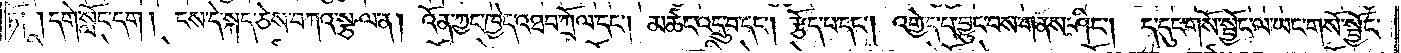ཏོ། །དགེ་སློང་དག །ངས་དེ་སྐད་ཅེས་བཀའ་སྩལ་ན། འོན་ཀྱང་ཁྱེད་འཐབ་ཀྲོལ་དང༌། མཚང་འདྲུ་བ་དང༌། རྩོད་པ་དང༌། འགྱེད་པ་བྱུང་བས་གནས་ཤིང༌། ད་དུང་གསོ་སྦྱོང་ལ་ཡང་གསོ་སྦྱོང་
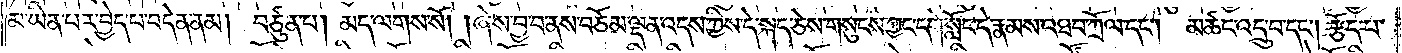མ་ཡིན་པར་བྱེད་པ་བདེན་ནམ། བཙུན་པ། མད་ལགས་སོ། །ཞེས་བྱ་བ་ནས་བཅོམ་ལྡན་འདས་ཀྱིས་དེ་སྐད་ཅེས་གསུངས་ཀྱང་དགེ་སློང་དེ་རྣམས་འཐབ་ཀྲོལ་དང༌། མཚང་འདྲུ་བ་དང༌། རྩོད་པ་
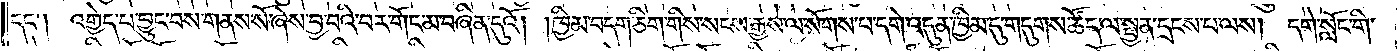དང་༑ འགྱེད་པ་བྱུང་བས་གནས་སོ་ཞེས་བྱ་བའི་བར་གོང་མ་བཞིན་དུའོ། །ཁྱིམ་བདག་ཅིག་གིས་སངས་རྒྱས་ལ་སོགས་པ་དགེ་འདུན་ཁྱིམ་དུ་གདུགས་ཚོད་ལ་སྤྱན་དྲངས་པ་ལས། དགེ་སློང་གི་
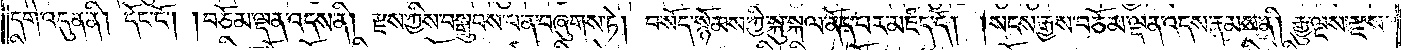དགེ་འདུན་ནི། དོང་ངོ༌། །བཅོམ་ལྡན་འདས་ནི། རྫས་ཀྱིས་བསྒྲུབས་པ་ན་བཞུགས་ཏེ། བསོད་སྙོམས་ཀྱི་སྐུ་སྐལ་ནོད་པར་མཛད་དོ། །སངས་རྒྱས་བཅོམ་ལྡན་འདས་རྣམས་ནི། རྒྱུ་ལྔས་རྫས་
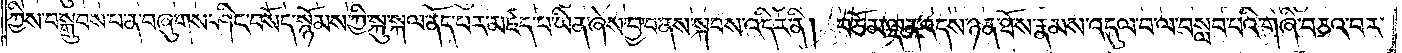ཀྱིས་བསྒྲུབས་པ་ན་བཞུགས་ཤིང་བསོད་སྙོམས་ཀྱི་སྐུ་སྐལ་ནོད་པར་མཛད་པ་ཡིན་ཞེས་བྱ་བ་ནས་སྐབས་འདིར་ནི། བཅོམ་ལྡན་འདས་ཉན་ཐོས་རྣམས་འདུལ་བ་ལ་བསླབ་པའི་གཞི་བཅའ་བར་
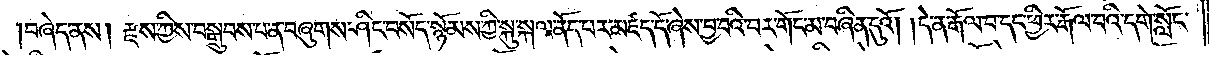བཞེད་ནས། རྫས་ཀྱིས་བསྒྲུབས་པ་ན་བཞུགས་ཤིང་བསོད་སྙོམས་ཀྱི་སྐུ་སྐལ་ནོད་པར་མཛད་དོ་ཞེས་བྱ་བའི་བར་གོང་མ་བཞིན་དུའོ། །དེ་ན་རྒོལ་བ་དང་ཕྱིར་རྒོལ་བའི་དགེ་སློང་
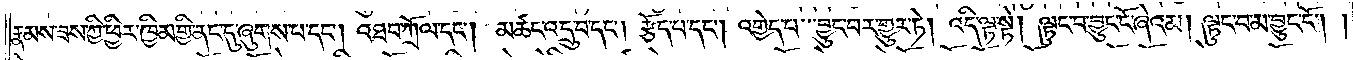རྣམས་ཟས་ཀྱི་ཕྱིར་ཁྱིམ་གྱི་ནང་དུ་ཞུགས་པ་དང༌། འཐབ་ཀྲོལ་དང༌། མཚང་འདྲུ་བ་དང༌། རྩོད་པ་དང༌། འགྱེད་པ་བྱུང་བར་གྱུར་ཏེ། འདི་ལྟ་སྟེ། ལྟུང་བ་བྱུང་ངོ་ཞེའམ། ལྟུང་བ་མ་བྱུང་ངོ༌། །
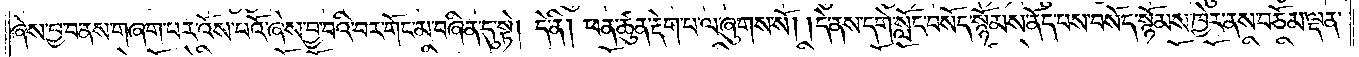ཞེས་བྱ་བ་ནས་གཞག་པར་འོས་པའོ་ཞེས་བྱ་བའི་བར་གོང་མ་བཞིན་དུ་སྟེ། དེ་ནི། ཕན་ཚུན་རྡེག་པ་ལ་ཞུགས་སོ། །དེ་ནས་དགེ་སློང་བསོད་སྙོམས་ནོད་པས་བསོད་སྙོམས་ཁྱེར་ནས་བཅོམ་ལྡན་
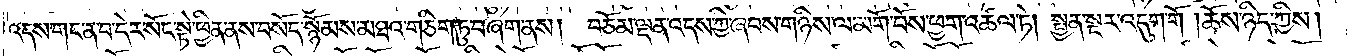འདས་གང་ན་བ་དེར་སོང་སྟེ་ཕྱིན་ནས་བསོད་སྙོམས་མཐའ་གཅིག་ཏུ་བཞག་ནས། བཅོམ་ལྡན་འདས་ཀྱི་ཞབས་གཉིས་ལ་མགོ་བོས་ཕྱག་འཚལ་ཏེ། སྤྱན་སྔར་འདུག་གོ །ཆོས་ཉིད་ཀྱིས།
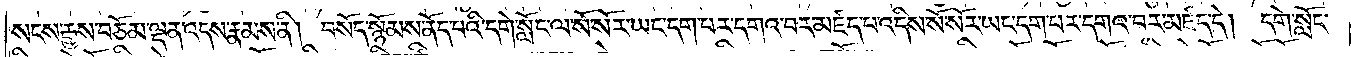སངས་རྒྱས་བཅོམ་ལྡན་འདས་རྣམས་ནི། བསོད་སྙོམས་ནོད་པའི་དགེ་སློང་ལ་སོ་སོར་ཡང་དག་པར་དགའ་བར་མཛད་པ་འདིས་སོ་སོར་ཡང་དག་པར་དགའ་བར་མཛད་དེ། དགེ་སློང་
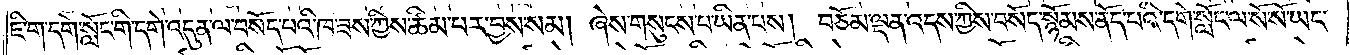ཇི་ག་དགེ་སློང་གི་དགེ་འདུན་ལ་བསོད་པའི་ཁ་ཟས་ཀྱིས་ཚིམ་པར་བྱས་སམ། ཞེས་གསུངས་པ་ཡིན་པས། བཅོམ་ལྡན་འདས་ཀྱིས་བསོད་སྙོམས་ནོད་པའི་དགེ་སློང་ལ་སོ་སོ་ཡང་
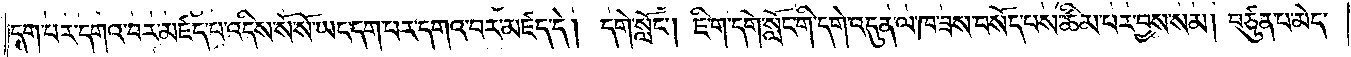དག་པར་དགའ་བར་མཛད་པ་འདིས་སོ་སོ་ཡང་དག་པར་དགའ་བར་མཛད་དེ། དགེ་སློང༌། ཇི་ག་དགེ་སློང་གི་དགེ་འདུན་ལ་ཁ་ཟས་བསོད་པས་ཚིམ་པར་བྱས་སམ། བཙུན་པ་མེད་
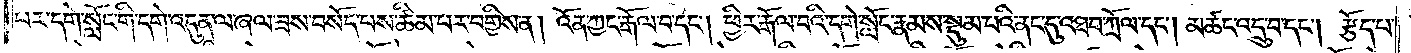པར་དགེ་སློང་གི་དགེ་འདུན་ལ་ཞལ་ཟས་བསོད་པས་ཚིམ་པར་བགྱིས་ན། འོན་ཀྱང་རྒོལ་བ་དང༌། ཕྱིར་རྒོལ་བའི་དགེ་སློང་རྣམས་སྡུམ་པའི་ནང་དུ་འཐབ་ཀྲོལ་དང༌། མཚང་འདྲུ་བ་དང༌། རྩོད་པ་
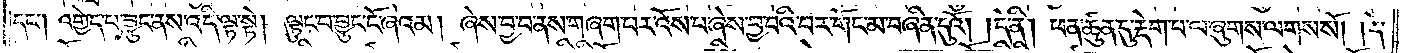དང༌། འགྱེད་པ་བྱུང་ནས་འདི་ལྟ་སྟེ། ལྟུང་བ་བྱུང་ངོ་ཞེའམ། ཞེས་བྱ་བ་ནས་གཞག་པར་འོས་པ་ཞེས་བྱ་བའི་བར་གོང་མ་བཞིན་དུའོ། །དེ་ནི། ཕན་ཚུན་དུ་རྡེག་པ་ལ་ཞུགས་ལགས་སོ། །དེ་
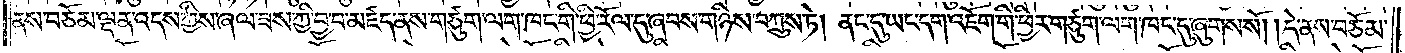ནས་བཅོམ་ལྡན་འདས་ཀྱིས་ཞལ་ཟས་ཀྱི་བྱ་བ་མཛད་ནས་གཙུག་ལག་ཁང་གི་ཕྱི་རོལ་དུ་ཞབས་གཉིས་བཀྲུས་ཏེ། ནང་དུ་ཡང་དག་པར་འཇོག་གི་ཕྱིར་གཙུག་ལག་ཁང་དུ་ཞུགས་སོ། །དེ་ནས་བཅོམ་
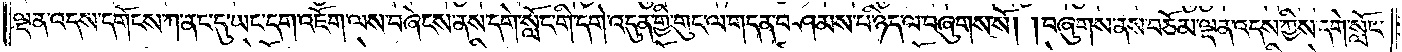ལྡན་འདས་དགོངས་ཀ་ནང་དུ་ཡང་དག་འཇོག་ལས་བཞེངས་ནས་དགེ་སློང་གི་དགེ་འདུན་གྱི་གུང་ལ་གདན་བཤམས་པ་ཉིད་ལ་བཞུགས་སོ། །བཞུགས་ནས་བཅོམ་ལྡན་འདས་ཀྱིས་དགེ་སློང་
